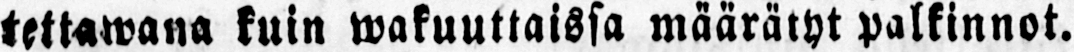tettawana kuin wakuuttaissa määrätyt palkinnot.
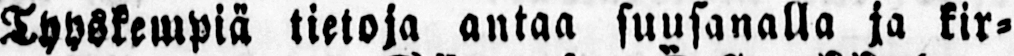Tyyskempiä tietoja antaa suusanalla ja kir-
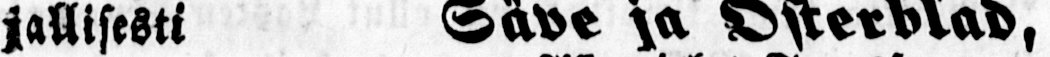jallisesti Säve ja Österblad,
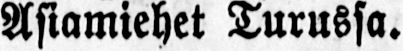Asiamiehet Turussa.
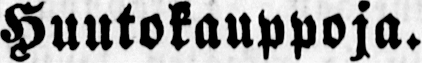Huutokauppoja.
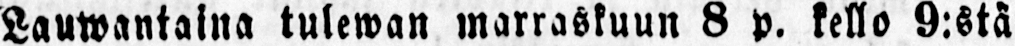Lauwantaina tulewan marraskuun 8 p. kello 9:stä
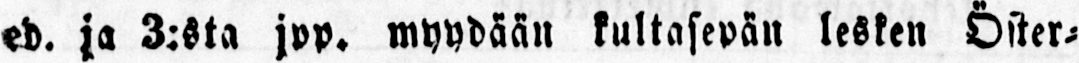ed. ja 3:sta jpp. myydään kultasepän lesken Öster-
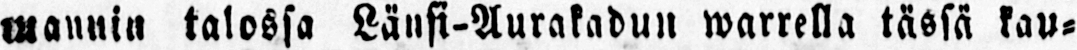mannin talossa Länsi-Aurakadun warrella tässä kau-
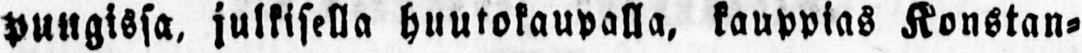pungissa, julkisella huutokaupalla, kauppias Konstan-
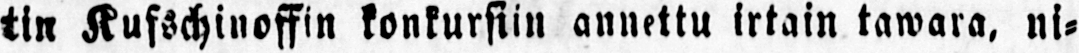tin Kufschinoffin konkursiin annettu irtain tawara, ni-
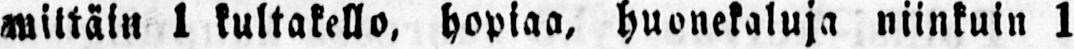mittäin 1 kultakello, hopiaa, huonekaluja niinkuin 1
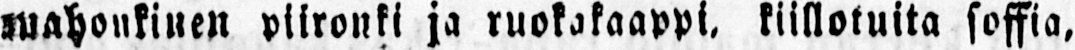mahonkinen piironki ja ruokakaappi, kiillotuita soffia,
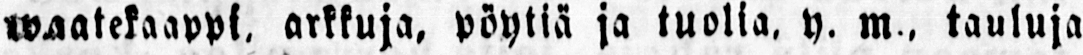waatekaappi, arkkuja, pöytiä ja tuolia, y. m., tauluja
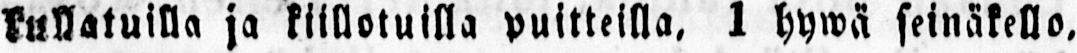kullatuilla ja kiillotuilla puitteilla, 1 hywä seinäkello,
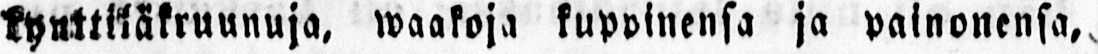kynttiläkruunuja, waakoja kuppinensa ja painonensa,
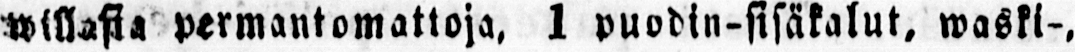willasia permantomattoja, 1 puodin-sisäkalut, waski-,
